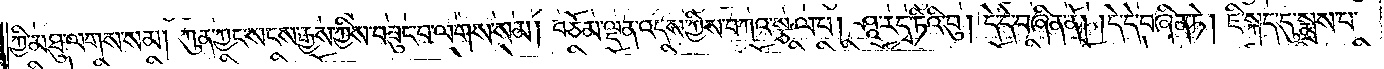ཀྱི་མཐུ་ལགས་སམ། ཀུན་ཀྱང་སངས་རྒྱས་ཀྱིས་བཟུང་བ་ལགས་སམ། བཅོམ་ལྡན་འདས་ཀྱིས་བཀའ་སྩལ་པ། ཤཱ་ར་དྭ་ཏིའི་བུ། དེ་དེ་བཞིན་ནོ། །དེ་དེ་བཞིན་ཏེ། ཇི་སྐད་དུ་སྨྲས་པ་
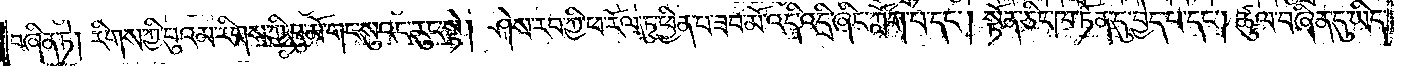བཞིན་ཏེ། རིགས་ཀྱི་བུའམ་རིགས་ཀྱི་བུ་མོ་གང་སུའང་རུང་སྟེ། ཤེས་རབ་ཀྱི་ཕ་རོལ་ཏུ་ཕྱིན་པ་ཟབ་མོ་འདི་འདྲི་ཞིང་ཀློག་པ་དང༌། སྟོན་ཅིང་ཁ་ཏོན་དུ་བྱེད་པ་དང༌། ཚུལ་བཞིན་དུ་ཡིད་
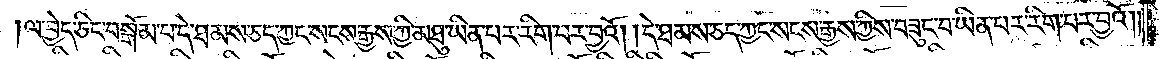ལ་བྱེད་ཅིང་བསྒོམ་པ་དེ་ཐམས་ཅད་ཀྱང་སངས་རྒྱས་ཀྱི་མཐུ་ཡིན་བར་རིག་པར་བྱའོ། །དེ་ཐམས་ཅད་ཀྱང་སངས་རྒྱས་ཀྱིས་བཟུང་བ་ཡིན་པར་རིག་པར་བྱའོ། །
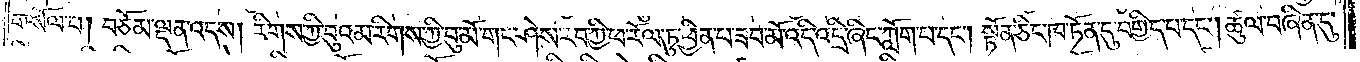གསོལ་པ། བཅོམ་ལྡན་འདས། རིགས་ཀྱི་བུའམ་རིགས་ཀྱི་བུ་མོ་གང་ཤེས་རབ་ཀྱི་ཕ་རོལ་ཏུ་ཕྱིན་པ་ཟབ་མོ་འདི་འདྲི་ཞིང་ཀློག་པ་དང༌། སྟོན་ཅིང་ཁ་ཏོན་དུ་བགྱིད་པ་དང༌། ཚུལ་བཞིན་དུ་
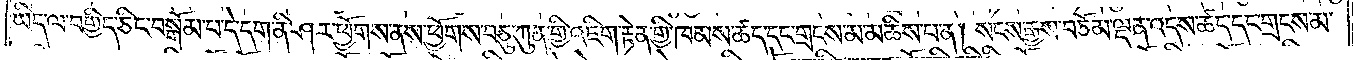ཡིད་ལ་བགྱིད་ཅིང་བསྒོམ་པ་དེ་དག་ནི་ཤར་ཕྱོགས་ནས་ཕྱོགས་བཅུ་ཀུན་གྱི་འཇིག་རྟེན་གྱི་ཁམས་ཚད་དང་གྲངས་མ་མཆིས་པ་ན། སངས་རྒྱས་བཅོམ་ལྡན་འདས་ཚད་དང་གྲངས་མ་
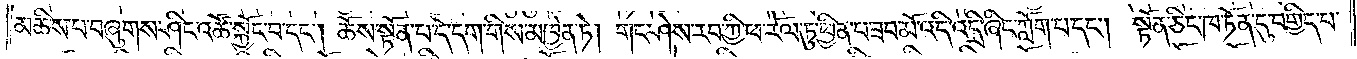མཆིས་པ་བཞུགས་ཤིང་འཚོ་སྐྱོང་པ་དང༌། ཆོས་སྟོན་པ་དེ་དག་གིས་མཁྱེན་ཏེ། གང་ཤེས་རབ་ཀྱི་ཕ་རོལ་ཏུ་ཕྱིན་པ་ཟབ་མོ་འདི་འདྲི་ཞིང་ཀློག་པ་དང༌། སྟོན་ཅིང་ཁ་ཏོན་དུ་བགྱིད་པ་
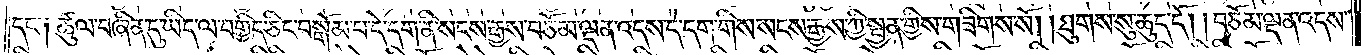དང༌། ཚུལ་བཞིན་དུ་ཡིད་ལ་བགྱིད་ཅིང་བསྒོམ་པ་དེ་དག་ནི་སངས་རྒྱས་བཅོམ་ལྡན་འདས་དེ་དག་གིས་སངས་རྒྱས་ཀྱི་སྤྱན་གྱིས་གཟིགས་སོ། །ཐུགས་སུ་ཆུད་དོ། །བཅོམ་ལྡན་འདས་
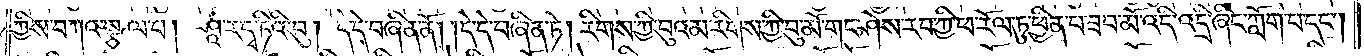ཀྱིས་བཀའ་སྩལ་པ། ཤཱ་ར་དྭ་ཏིའི་བུ།  དེ་དེ་བཞིན་ནོ། །དེ་དེ་བཞིན་ཏེ། རིགས་ཀྱི་བུའམ་རིགས་ཀྱི་བུ་མོ་གང་ཤེས་རབ་ཀྱི་ཕ་རོལ་ཏུ་ཕྱིན་པ་ཟབ་མོ་འདི་འདྲི་ཞིང་ཀློག་པ་དང༌།
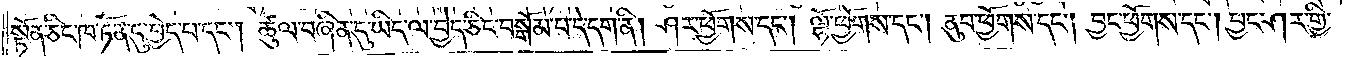སྟོན་ཅིང་ཁ་ཏོན་དུ་བྱེད་པ་དང༌། ཚུལ་བཞིན་དུ་ཡིད་ལ་བྱེད་ཅིང་བསྒོམ་པ་དེ་དག་ནི། ཤར་ཕྱོགས་དང༌། ལྷོ་ཕྱོགས་དང༌། ནུབ་ཕྱོགས་དང༌། བྱང་ཕྱོགས་དང༌། བྱང་ཤར་གྱི་
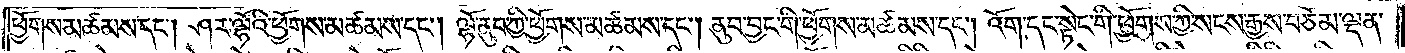ཕྱོགས་མཚམས་དང༌། ཤར་ལྷོའི་ཕྱོགས་མཚམས་དང༌། ལྷོ་ནུབ་ཀྱི་ཕྱོགས་མཚམས་དང༌། ནུབ་བྱང་གི་ཕྱོགས་མཚམས་དང༌། འོག་དང་སྟེང་གི་ཕྱོགས་ཀྱི་སངས་རྒྱས་བཅོམ་ལྡན་
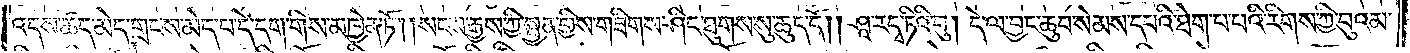འདས་ཚད་མེད་གྲངས་མེད་པ་དེ་དག་གིས་མཁྱེན་ཏོ། །སངས་རྒྱས་ཀྱི་སྤྱན་གྱིས་གཟིགས་ཤིང་ཐུགས་སུ་ཆུད་དོ། །ཤཱ་རདྭ་ཏིའི་བུ། དེ་ལ་བྱང་ཆུབ་སེམས་དཔའི་ཐེག་པ་པའི་རིགས་ཀྱི་བུའམ་
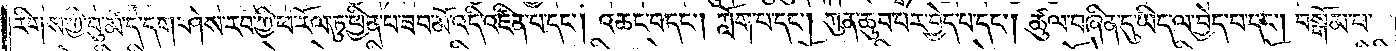རིགས་ཀྱི་བུ་མོ་དེ་དག་ཤེས་རབ་ཀྱི་ཕ་རོལ་ཏུ་ཕྱིན་པ་ཟབ་མོ་འདི་འཛིན་པ་དང༌། འཆང་བ་དང༌། ཀློག་པ་དང༌། ཀུན་ཆུབ་པར་བྱེད་པ་དང༌། ཚུལ་བཞིན་དུ་ཡིད་ལ་བྱེད་པ་དང༌། བསྒོམ་པ་
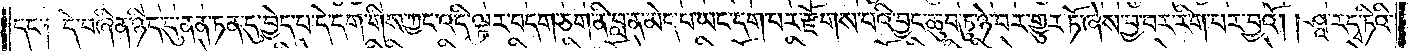དང་༑ དེ་བཞིན་ཉིད་དུ་ནན་ཏན་དུ་བྱེད་པ་དེ་དག་གིས་ཀྱང་འདི་ལྟར་བདག་ཅག་ནི་བླ་ན་མེད་པ་ཡང་དག་པར་རྫོགས་པའི་བྱང་ཆུབ་ཏུ་ཉེ་བར་གྱུར་ཏོ་ཞེས་བྱེ་བར་རིག་པར་བྱའོ། །ཤཱ་རདྭ་ཏིའི་
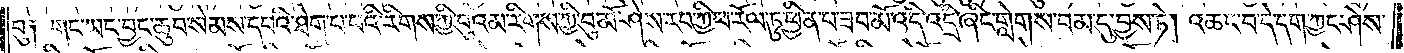བུ༑ གང་ཡང་བྱང་ཆུབ་སེམས་དཔའི་ཐེག་པ་པའི་རིགས་ཀྱི་བུ་འམ་རིགས་ཀྱི་བུ་མོ་ཤེས་རབ་ཀྱི་ཕ་རོལ་ཏུ་ཕྱིན་པ་ཟབ་མོ་འདི་འདྲི་ཞིང་གླེགས་བམ་དུ་བྱས་ཏེ། འཆང་བ་དེ་དག་ཀྱང་ཤེས་
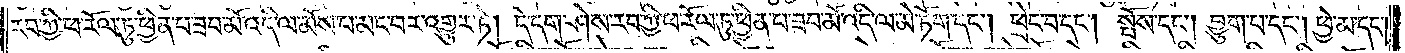རབ་ཀྱི་ཕ་རོལ་ཏུ་ཕྱིན་པ་ཟབ་མོ་འདི་ལ་མོས་པ་མང་བར་འགྱུར་ཏེ། དེ་དག་ཤེས་རབ་ཀྱི་ཕ་རོལ་ཏུ་ཕྱིན་པ་ཟབ་མོ་འདི་ལ་མེ་ཏོག་དང༌། ཕྲེང་བ་དང༌། སྤོས་དང༌། བྱུག་པ་དང༌། ཕྱེ་མ་དང༌།
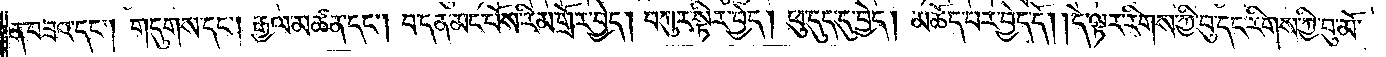ན་བཟའ་དང༌། གདུགས་དང༌། རྒྱལ་མཚན་དང༌། བ་དན་མང་པོས་རིམ་གྲོར་བྱད། བཀུར་སྟིར་བྱེད། ཕུ་དུད་དུ་བྱེད། མཆོད་པར་བྱེད་དོ། །དེ་ལྟར་རིགས་ཀྱི་བུ་དང་རིགས་ཀྱི་བུ་མོ་
